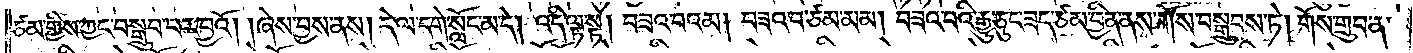ཙམ་གྱིས་ཀྱང་བསྒྲུབ་པར་བྱའོ། །ཞེས་བྱས་ནས། དེ་ལ་དགེ་སློང་མ་དེ། འདི་ལྟ་སྟེ། བཟའ་བའམ། བཟའ་བ་ཙམ་མམ། བཟའ་བའི་རྒྱུ་ཅུང་ཟད་ཙམ་བྱིན་ནས་གོས་བསྒྲུབས་ཏེ། གོས་གྲུབ་ན་
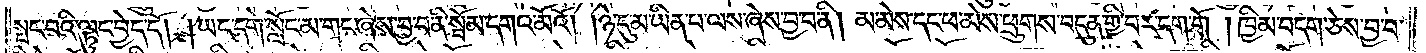སྤང་བའི་ལྟུང་བྱེད་དོ། །ཡང་དགེ་སློང་མ་གང་ཞེས་བྱ་བ་ནི་སྦོམ་དགའ་མོའོ། །ཉེ་དུ་མ་ཡིན་པ་ལས་ཞེས་བྱ་བ་ནི། མ་མེས་དང་ཕ་མེས་ཕྲུགས་བདུན་གྱི་བར་དག་གོ །ཁྱིམ་བདག་ཅེས་བྱ་བ་
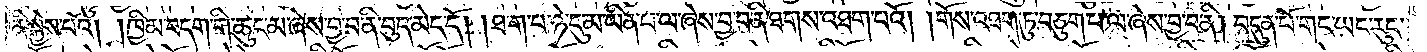ནི་སྐྱེས་པའོ། །ཁྱིམ་བདག་གི་ཆུང་མ་ཞེས་བྱ་བ་ནི་བུད་མེད་དོ། །ཐ་ག་པ་ཉེ་དུ་མ་ཡིན་པ་ལ་ཞེས་བྱ་བ་ནི་ཐགས་འཐག་པའོ། ། གོས་འཐག་ཏུ་བཅུག་པ་ལ་ཞེས་བྱ་བ་ནི། བདུན་པོ་གང་ཡང་རུང་
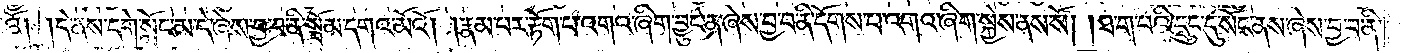འོ། །དེ་ནས་དགེ་སློང་མ་དེ་ཞེས་བྱ་བ་ནི་སྦོམ་དགའ་མོའོ། །རྣམ་པར་རྟོག་པ་འགའ་ཞིག་བྱུང་ན་ཞེས་བྱ་བ་ནི་དོགས་པ་འགའ་ཞིག་སྐྱེས་ནས་སོ། །ཐ་ག་པའི་དྲུང་དུ་སོང་ནས་ཞེས་བྱ་བ་ནི་
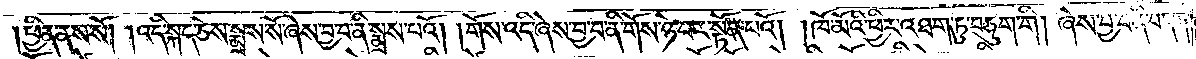ཕྱིན་ནས་སོ། ། འདི་སྐད་ཅེས་སྨྲས་སོ་ཞེས་བྱ་བ་ནི་སྨྲས་པའོ། ། གོས་འདི་ཞེས་བྱ་བ་ནི་གོས་ཉེ་བར་སྟོན་པའོ། ། ཁོ་མོའི་ཕྱིར་འཐག་ཏུ་བཅུག་གི། ཞེས་བྱ་བ་ནི་བདག་
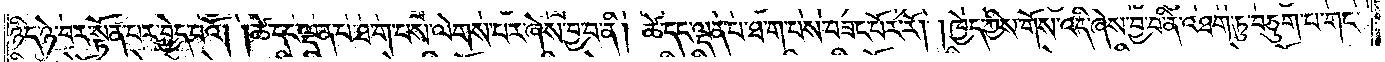ཉིད་ཉེ་བར་སྟོན་པར་བྱེད་པའོ། །ཚེ་དང་ལྡན་པ་ཐ་ག་པས་ལེགས་པར་ཞེས་བྱ་བ་ནི། ཚེ་དང་ལྡན་པ་ཐ་ག་པས་བཟང་པོར་རོ། །ཁྱེད་ཀྱིས་གོས་འདི་ཞེས་བྱ་བ་ནི་འཐག་ཏུ་བཅུག་པ་གང་
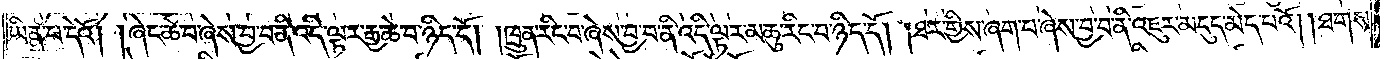ཡིན་པ་དེའོ། །ཞེང་ཆེ་བ་ཞེས་བྱ་བ་ནི་འདི་ལྟར་རྒྱ་ཆེ་བ་ཉིད་དོ། །ཁྲུན་རིང་བ་ཞེས་བྱ་བ་ནི་འདི་ལྟར་མཆུ་རིང་བ་ཉིད་དོ། །ཐར་གྱིས་ཞག་པ་ཞེས་བྱ་བ་ནི་འཇུར་མདུད་མེད་པའོ། །ཐགས་
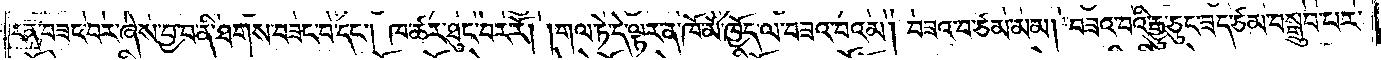རན་བཟང་བར་ཞེས་བྱ་བ་ནི་ཐགས་བཟང་བ་དང༌། ཁ་ཚར་ཐུང་བར་རོ། །གལ་ཏེ་དེ་ལྟར་ན་ཁོ་མོ་ཁྱོད་ལ་བཟའ་བའམ། བཟའ་བ་ཙམ་མམ། བཟའ་བའི་རྒྱུ་ཅུང་ཟད་ཙམ་བསྒྲུབ་པར་
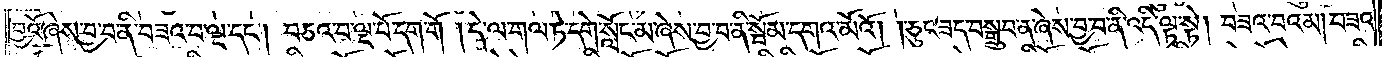བྱའོ་ཞེས་བྱ་བ་ནི་བཟའ་བ་ལྔ་དང༌། བཅའ་བ་ལྔ་པོ་དག་གོ ། དེ་ལ་གལ་ཏེ་དགེ་སློང་མ་ཞེས་བྱ་བ་ནི་སྦོམ་དགའ་མོའོ། །ཅུང་ཟད་བསྒྲུབ་ན་ཞེས་བྱ་བ་ནི་འདི་ལྟ་སྟེ། བཟའ་བའམ། བཟའ་
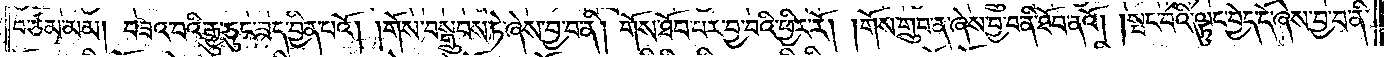བ་ཙམ་མམ། བཟའ་བའི་རྒྱུ་ཅུང་ཟད་བྱིན་པའོ། །གོས་བསྒྲུབས་ཏེ་ཞེས་བྱ་བ་ནི། གོས་ཐོབ་པར་བྱ་བའི་ཕྱིར་རོ། །གོས་གྲུབ་ན་ཞེས་བྱ་བ་ནི་ཐོབ་ནའོ། །སྤང་བའི་ལྟུང་བྱེད་དོ་ཞེས་བྱ་བ་ནི་
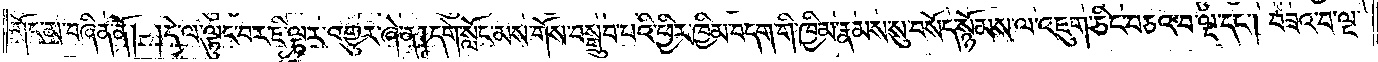གོང་མ་བཞིན་ནོ། །དེ་ལ་ལྟུང་བར་ཇི་ལྟར་འགྱུར་ཞེ་ན། དགེ་སློང་མས་གོས་བསྒྲུབ་པའི་ཕྱིར་ཁྱིམ་བདག་གི་ཁྱིམ་རྣམས་སུ་བསོད་སྙོམས་ལ་འཇུག་ཅིང་བཅའ་བ་ལྔ་དང༌། བཟའ་བ་ལྔ་
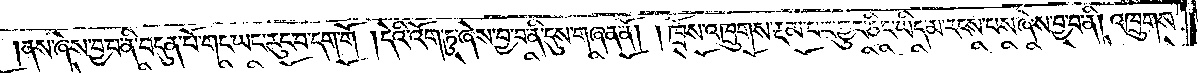ནས་ཞེས་བྱ་བ་ནི་བདུན་པོ་གང་ཡང་རུང་བ་དག་གོ །དེའི་འོག་ཏུ་ཞེས་བྱ་བ་ནི་དུས་གཞན་ནོ། །ཁྲོས་འཁྲུགས་རྔམ་པར་གྱུར་ཅིང་ཡིད་མ་རངས་པས་ཞེས་བྱ་བ་ན། འཁྲུགས་
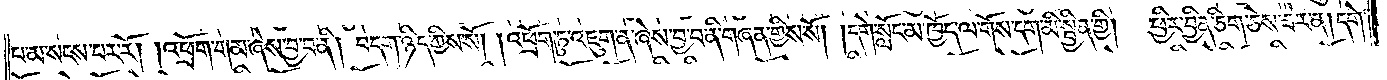པ་མ་སངས་བར་རོ། །འཕྲོག་གམ་ཞེས་བྱ་བ་ནི། བདག་ཉིད་ཀྱིས་སོ། །འཕྲོག་ཏུ་འཇུག་ན་ཞེས་བྱ་བ་ནི་གཞན་གྱིས་སོ། །དགེ་སློང་མ་ཁྱོད་ལ་གོས་དག་མི་སྦྱིན་གྱི། ཕྱིར་བྱིན་ཅིག་ཅེས་ཟེར་ན། དགེ་
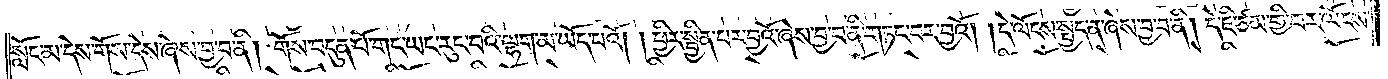སློང་མ་དེས་གོས་དེས་ཞེས་བྱ་བ་ནི། གོས་བདུན་པོ་གང་ཡང་རུང་བའི་ལྷག་མ་ཡོད་པའོ། །ཕྱིར་སྦྱིན་པར་བྱའོ་ཞེས་བྱ་བ་ནི་གཏང་བར་བྱའོ། །དེ་ལོངས་སྤྱད་ན་ཞེས་བྱ་བ་ནི། དེ་ཇི་ཙམ་གྱི་བར་ལོངས་
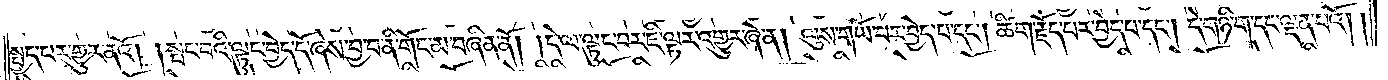སྤྱད་པར་གྱུར་ནའོ། །སྤང་བའི་ལྟུང་བྱེད་དོ་ཞེས་བྱ་བ་ནི་གོང་མ་བཞིན་ནོ། །དེ་ལ་ལྟུང་བར་ཇི་ལྟར་འགྱུར་ཞེ་ན། ལུས་གཡོ་བར་བྱེད་པ་དང༌། ཚིག་རྗོད་པར་བྱེད་པ་དང༌། དེ་གཉི་ག་དང་ལྡན་པའོ། །
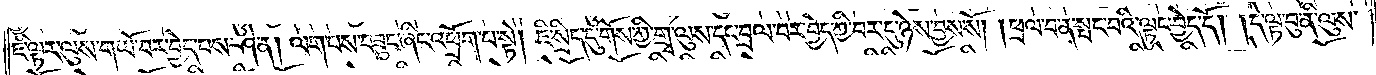ཇི་ལྟར་ལུས་གཡོ་བར་བྱེད་པས་ཤེ་ན། ལག་པས་བཟུང་ཞིང་འཕྲོག་པ་སྟེ། ཇི་སྲིད་དུ་གོས་ཀྱི་གྲྭ་ལུས་དང་བྲལ་བར་བྱེད་ཀྱི་བར་དུ་ཉེས་བྱས་སོ། །ཕྲལ་བ་ན་སྤང་བའི་ལྟུང་བྱེད་དོ། །དེ་ལྟ་བུ་ནི་ལུས་
